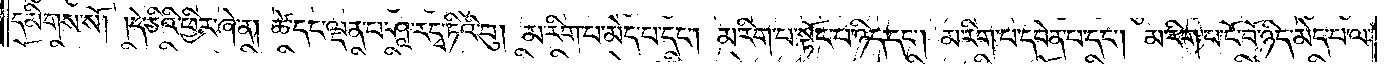དམིགས་སོ། །དེ་ཅིའི་ཕྱིར་ཞེ་ན། ཚེ་དང་ལྡན་པ་ཤཱ་རདྭ་ཏིའི་བུ། མ་རིག་པ་མེད་པ་དང༌། མ་རིག་པ་སྟོང་པ་ཉིད་དང༌། མ་རིག་པ་དབེན་པ་དང༌། མ་རིག་པ་ངོ་བོ་ཉིད་མེད་པ་ལ་
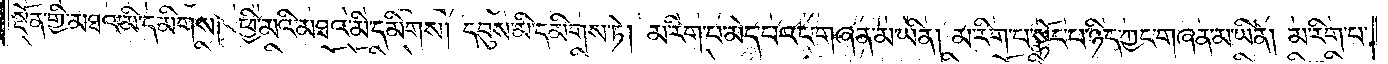སྔོན་གྱི་མཐའ་མི་དམིགས། ཕྱི་མའི་མཐའ་མི་དམིགས། དབུས་མི་དམིགས་ཏེ། མ་རིག་པ་མེད་པའང་གཞན་མ་ཡིན། མ་རིག་པ་སྟོང་པ་ཉིད་ཀྱང་གཞན་མ་ཡིན། མ་རིག་པ་
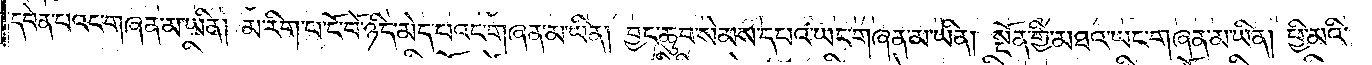དབེན་པའང་གཞན་མ་ཡིན། མ་རིག་པ་ངོ་བོ་ཉིད་མེད་པའང་གཞན་མ་ཡིན། བྱང་ཆུབ་སེམས་དཔའ་ཡང་གཞན་མ་ཡིན། སྔོན་གྱི་མཐའ་ཡང་གཞན་མ་ཡིན། ཕྱི་མའི་
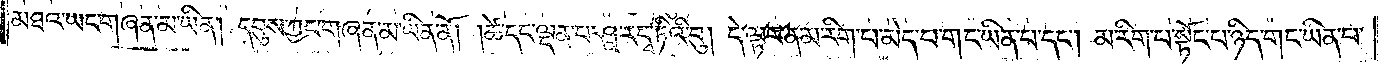མཐའ་ཡང་གཞན་མ་ཡིན། དབུས་ཀྱང་གཞན་མ་ཡིན་ནོ། །ཚེ་དང་ལྡན་པ་ཤཱ་རདྭ་ཏིའི་བུ། དེ་ལྟར་ན་མ་རིག་པ་མེད་པ་གང་ཡིན་པ་དང༌། མ་རིག་པ་སྟོང་པ་ཉིད་གང་ཡིན་པ་
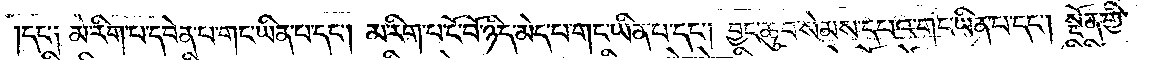དང་༑ མ་རིག་པ་དབེན་པ་གང་ཡིན་པ་དང༌། མ་རིག་པ་ངོ་བོ་ཉིད་མེད་པ་གང་ཡིན་པ་དང༌། བྱང་ཆུབ་སེམས་དཔའ་གང་ཡིན་པ་དང༌། སྔོན་གྱི་
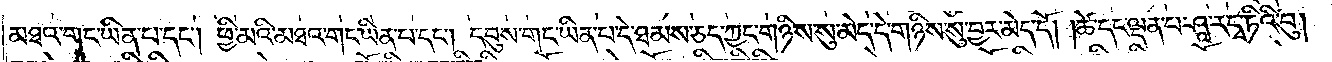མཐའ་གང་ཡིན་པ་དང༌། ཕྱི་མའི་མཐའ་གང་ཡིན་པ་དང༌། དབུས་གང་ཡིན་པ་དེ་ཐམས་ཅད་ཀྱང་གཉིས་སུ་མེད་དེ་གཉིས་སུ་བྱར་མེད་དོ། །ཚེ་དང་ལྡན་པ་ཤཱ་རདྭ་ཏིའི་བུ།
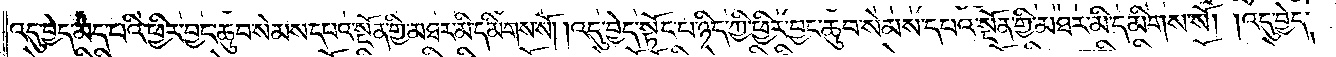འདུ་བྱེད་མེད་པའི་ཕྱིར་བྱང་ཆུབ་སེམས་དཔའ་སྔོན་གྱི་མཐར་མི་དམིགས་སོ། །འདུ་བྱེད་སྟོང་པ་ཉིད་ཀྱི་ཕྱིར་བྱང་ཆུབ་སེམས་དཔའ་སྔོན་གྱི་མཐར་མི་དམིགས་སོ། །འདུ་བྱེད་
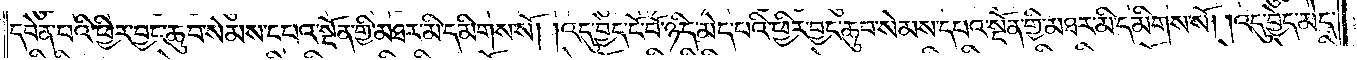དབེན་པའི་ཕྱིར་བྱང་ཆུབ་སེམས་དཔའ་སྔོན་གྱི་མཐར་མི་དམིགས་སོ། །འདུ་བྱེད་ངོ་བོ་ཉིད་མེད་པའི་ཕྱིར་བྱང་ཆུབ་སེམས་དཔའ་སྔོན་གྱི་མཐར་མི་དམིགས་སོ། །འདུ་བྱེད་མེད་
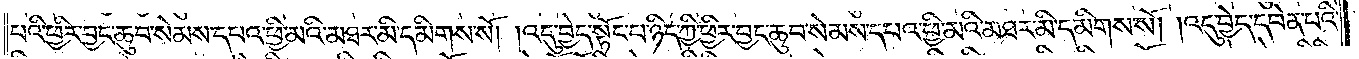པའི་ཕྱིར་བྱང་ཆུབ་སེམས་དཔའ་ཕྱི་མའི་མཐར་མི་དམིགས་སོ། །འདུ་བྱེད་སྟོང་པ་ཉིད་ཀྱི་ཕྱིར་བྱང་ཆུབ་སེམས་དཔའ་ཕྱི་མའི་མཐར་མི་དམིགས་སོ། །འདུ་བྱེད་དབེན་པའི་
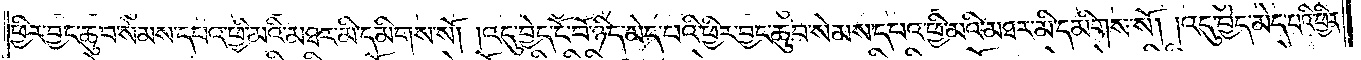ཕྱིར་བྱང་ཆུབ་སེམས་དཔའ་ཕྱི་མའི་མཐར་མི་དམིགས་སོ། །འདུ་བྱེད་ངོ་བོ་ཉིད་མེད་པའི་ཕྱིར་བྱང་ཆུབ་སེམས་དཔའ་ཕྱི་མའི་མཐར་མི་དམིགས་སོ། །འདུ་བྱེད་མེད་པའི་ཕྱིར་
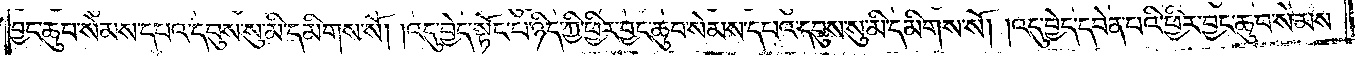བྱང་ཆུབ་སེམས་དཔའ་དབུས་སུ་མི་དམིགས་སོ། །འདུ་བྱེད་སྟོང་པ་ཉིད་ཀྱི་ཕྱིར་བྱང་ཆུབ་སེམས་དཔའ་དབུས་སུ་མི་དམིགས་སོ། །འདུ་བྱེད་དབེན་པའི་ཕྱིར་བྱང་ཆུབ་སེམས་
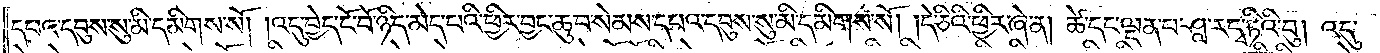དཔའ་དབུས་སུ་མི་དམིགས་སོ། །འདུ་བྱེད་ངོ་བོ་ཉིད་མེད་པའི་ཕྱིར་བྱང་ཆུབ་སེམས་དཔའ་དབུས་སུ་མི་དམིགས་སོ། །དེ་ཅིའི་ཕྱིར་ཞེ་ན། ཚེ་དང་ལྡན་པ་ཤཱ་རདྭ་ཏིའི་བུ། འདུ་
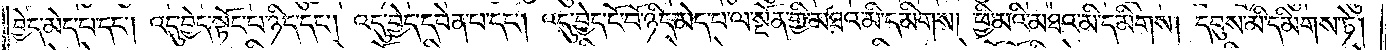བྱེད་མེད་པ་དང༌། འདུ་བྱེད་སྟོང་པ་ཉིད་དང༌། འདུ་བྱེད་དབེན་པ་དང༌། འདུ་བྱེད་ངོ་བོ་ཉིད་མེད་པ་ལ་སྔོན་གྱི་མཐའ་མི་དམིགས་ཕྱི་མའི་མཐའ་མི་དམིགས། དབུས་མི་དམིགས་ཏེ།
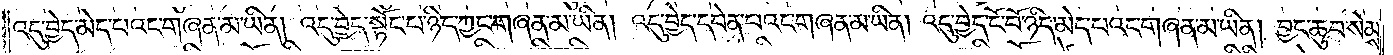འདུ་བྱེད་མེད་པའང་གཞན་མ་ཡིན། འདུ་བྱེད་སྟོང་པ་ཉིད་ཀྱང་གཞན་མ་ཡིན། འདུ་བྱེད་དབེན་པའང་གཞན་མ་ཡིན། འདུ་བྱེད་ངོ་བོ་ཉིད་མེད་པའང་གཞན་མ་ཡིན། བྱང་ཆུབ་སེམས་
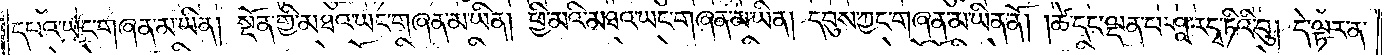དཔའ་ཡང་གཞན་མ་ཡིན། སྔོན་གྱི་མཐའ་ཡང་གཞན་མ་ཡིན། ཕྱི་མའི་མཐའ་ཡང་གཞན་མ་ཡིན། དབུས་ཀྱང་གཞན་མ་ཡིན་ནོ། །ཚེ་དང་ལྡན་པ་ཤཱ་རདྭ་ཏིའི་བུ། དེ་ལྟར་ན་
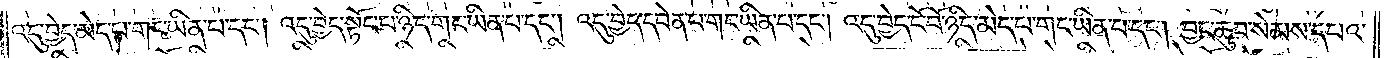འདུ་བྱེད་མེད་པ་གང་ཡིན་པ་དང༌། འདུ་བྱེད་སྟོང་པ་ཉིད་གང་ཡིན་པ་དང༌། འདུ་བྱེད་དབེན་པ་གང་ཡིན་པ་དང༌། འདུ་བྱེད་ངོ་བོ་ཉིད་མེད་པ་གང་ཡིན་པ་དང༌། བྱང་ཆུབ་སེམས་དཔའ་
